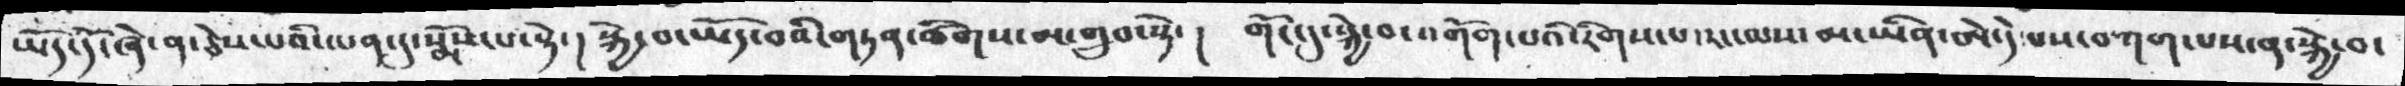ཡོད་དོ་ཞེ་ན་ཅེས་པའི་ཡན་དུ་སྨོས་པ་སྟེ་། སྐྱེ་བ་ཡོད་བའི་གཏན་ཚིགས་མ་གྲུབ་སྟེ་།  གོང་དུ་སྐྱེ་བ་འགོག་པའི་རིགས་པ་རང་མས་མ་ཡིན་ཨེད་དེ་པས་བཀག་པས་ན་སྐྱེ་བ་
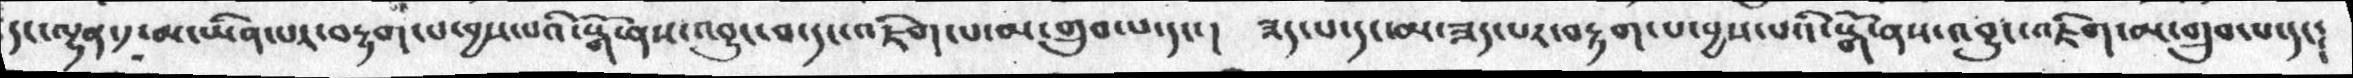དང་ལྷན་༡་མ་ཡིན་པར་བརྟག་པ་བྱས་པའི་སྒོ་ནས་འབྱུང་བ་དང་འཇིག་པ་མ་གྲུབ་པ་དང་། ཟད་པ་དང་མ་ཟད་པར་བརྟག་པ་བྱས་པའི་སྒོ་ནས་འབྱུང་འཇིག་མ་གྲུབ་པ་དང༴
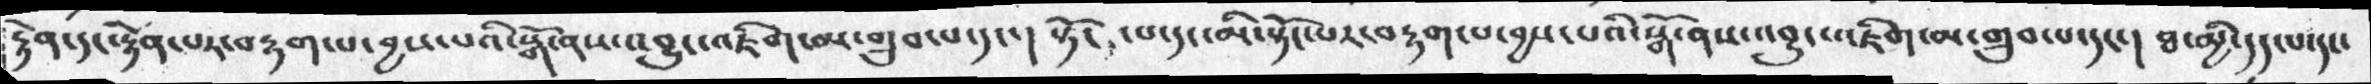རྟེན་དང་རྟེན་པར་བརྟག་པ་བྱས་པའི་སྒོ་ནས་འབྱུང་འཇིག་མ་གྲུབ་པ་དང་། སྟོང་པ་དང་མི་སྟོང་པར་བརྟག་པ་བྱས་པའི་སྒོ་ནས་འབྱུང་འཇིག་མ་གྲུབ་པ་དང་། ཐ་མྱི་དད་པ་དང་
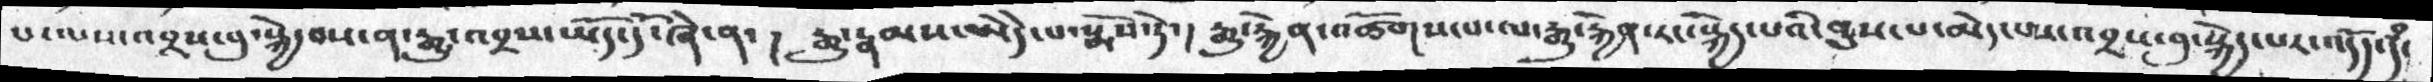པ་ལས་འབྲས་བུ་སྐྱེ་བས་ན་རྒྱུ་འབྲས་ཡོད་དོ་ཞེ་ན་། རྒྱུ་རྣམས་ཨེདེ་པ་སྨོས་ཏེ་། རྒྱུ་རྐྱེན་འཚོགས་པ་ལ་རྒྱུ་རྐྱེན་རང་སྐྱེད་པའི་ནུས་པ་མེད་པས་འབྲས་བུ་སྐྱེད་པར་འདོད་དཾ་
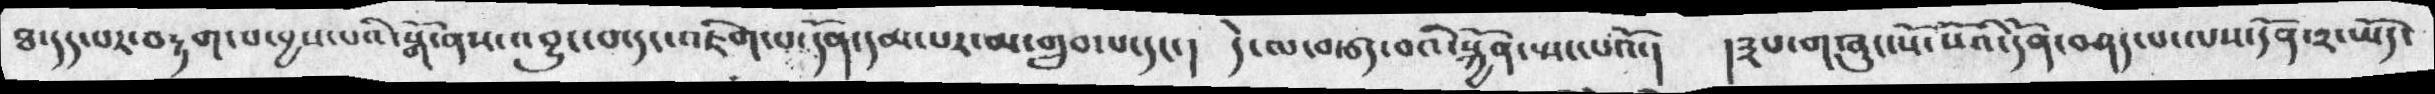ཐ་དད་པར་བརྟག་པ་བྱས་པའི་སྒོ་ནས་འབྱུང་བ་དང་འཇིག་པ་དོན་དམ་པར་མ་གྲུབ་པ་དང་།  དེ་ལ་བརྩད་བའི་སྐྱོན་སྤང་པའོ་།  །༣པ་གཞུང་སོ་སོའི་དོན་བཤད་པ་ལས་དོན་༢་ཡོད་
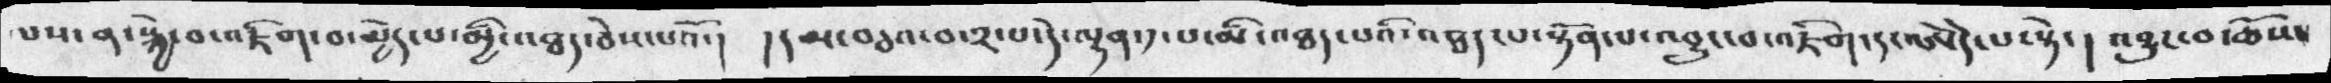པས་ན་སྐྱེ་བ་འཇིག་བ་མྱེད་པ་མྱི་འཐད་ཅེས་པའོ་།  །དམ་བཅའ་བ་༢་པ་དེ་ལྷན་༡་པ་མི་འཐད་པ་སྟོན་པ་འབྱུང་བ་འཇིག་དང་ཨེདེ་པ་སྟེ་། འབྱུང་བ་ཆོས་
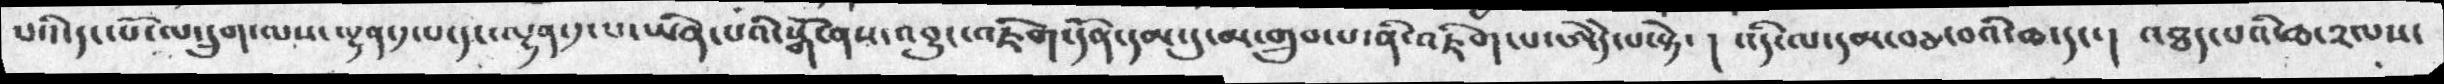པའི་དང་པོ་ལ་དྲུག་ལས་ལྷན་༡་པ་དང་ལྷན་༡་པ་ཡིན་པའི་སྒོ་ནས་འབྱུང་འཇིག་དོན་དམ་དུ་མ་གྲུབ་པ་ནི་འཇིག་པ་ཨེདེ་པ་སྟེ་། འདི་ལ་དམ་བཅ་བའི་ཆ་དང་། འཐད་པའི་ཆ་༢ལས་
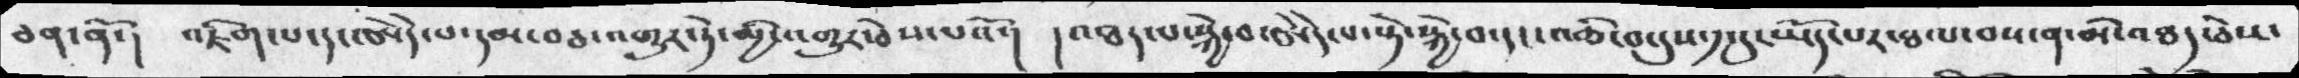ཅན་ནོ་།  འཇིག་པ་དང་ཨེདེ་པ་དམ་བཅ་འགྱུར་ཏེ་མྱི་འགྱུར་ཅེས་པའོ་།  །འཐད་པ་སྐྱེ་བ་ཨེདེ་པ་སྟེ་སྐྱེ་བ་དང་འཆི་བ་དུས་༡་དུ་ཡོད་པར་ཐལ་བས་ན་མི་འཐད་ཅེས་
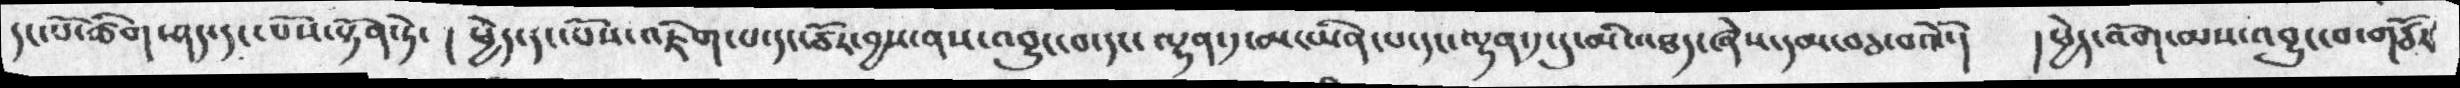དང་ཚིག་ཤད་དང་པོས་སྟོན་ཏེ་། ཕྱེད་དང་པོས་འཇིག་པ་དང་ཙོར་བྱས་ནས་འབྱུང་བ་དང་ལྷན་༡་མ་ཡིན་པ་དང་ལྷན་༡་དུ་མི་འཐད་ཞེས་དམ་བའོ་།  །ཕྱེད་འོག་མས་འབྱུང་བ་གཙོར
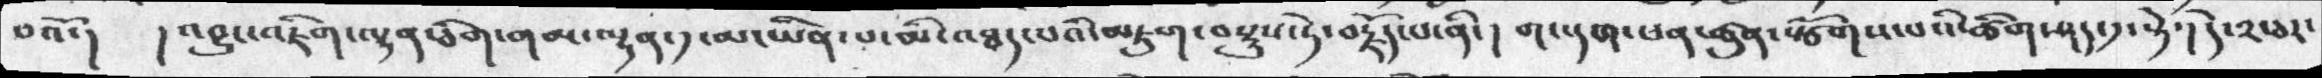བའོ་།  །འབྱུང་འཇིག་ལྷན་ཅིག་གམ་ལྷན་༡་མ་ཡིན་པ་མི་འཐད་པའི་མཇུག་བསྡུས་ཏེ་བརྗོད་པ་ནི་། གང་དག་ཕན་ཚུན་སྩོགས་པའི་ཚིག་ཤད་༡་སྟེ་། དེ་༢ཕར་
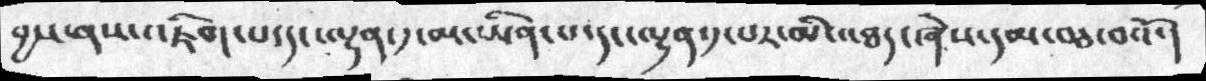བྱས་ནས་འཇིག་པ་དང་ལྷན་༡་མ་ཡིན་པ་དང་ལྷན་༡་པར་མི་འཐད་ཞེས་དམ་བཅ་བའོ་།
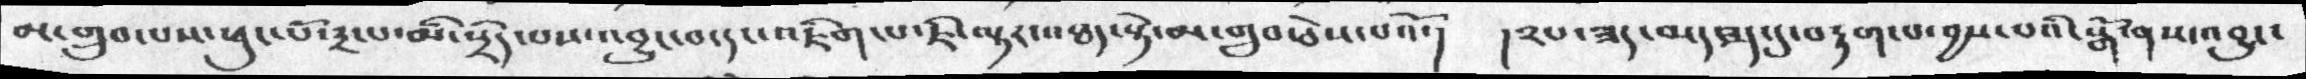མ་གྲུབ་པས་ཕུང་པོ་༣་པ་མི་སྲིད་པས་འབྱུང་བ་དང་འཇིག་པ་ཇི་ལྟར་འཐད་སྟེ་མ་གྲུབ་ཅེས་པའོ་།  །༢པ་ཟད་མ་ཟད་དུ་བརྟག་པ་བྱས་པའི་སྒོ་ནས་འབྱུང་
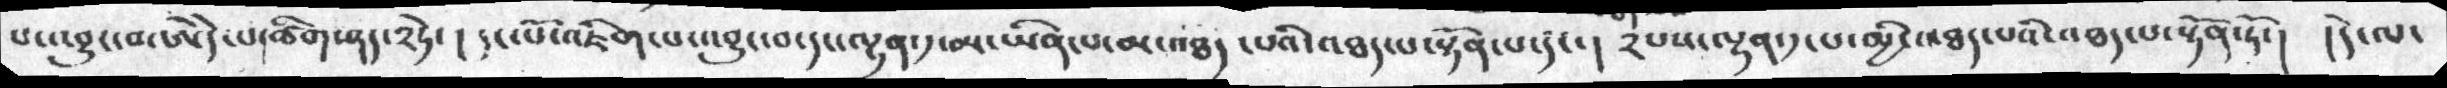པ་འབྱུང་བ་ཨེདེ་པ་ཚཱིག་ཤད་༢ཏེ་། དང་པོ་འཇིག་པ་འབྱུང་བ་དང་ལྷན་༡་མ་ཡིན་པ་མ་འཐད་པའི་འཐད་པ་སྟོན་པ་དང་། ༢པས་ལྷན་༡་པ་མྱི་འཐད་པའི་འཐད་པ་སྟོན་ཏོ་། །དེ་ལ་
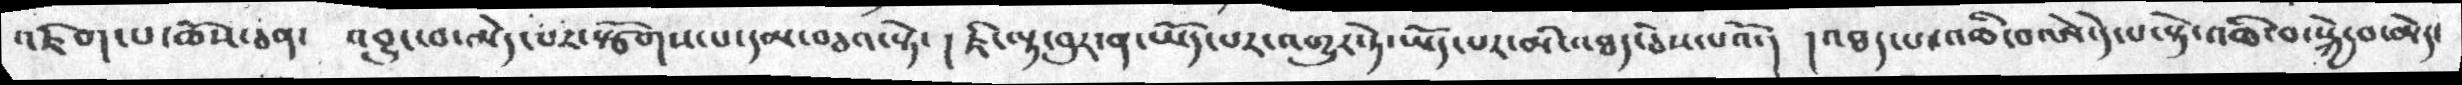འཇིག་པ་ཆོས་ཅན་  འབྱུང་བ་མེད་པར་སྩོགས་པ་དམ་བཅའ་སྟེ་ ། ཇི་ལྟར་བུར་ན་ཡོད་པར་འགྱུར་ཏེ་ཡོད་པར་མི་འཐད་ཅེས་པའོ་། །འཐད་པ་འཆི་བ་ཨེ་དེ་པ་སྟེ་འཆི་བ་སྐྱེ་བ་མེད་
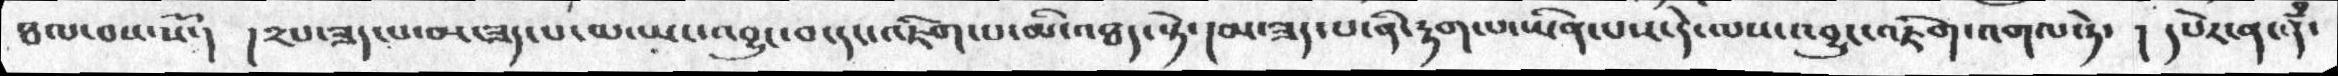ཐལ་བས་སོ་།  །༢པ་ཟད་པ་མ་ཟད་པ་མ་ཡང་འབྱུང་བ་དང་འཇིག་པ་མི་འཐད་སྟེ་ །མ་ཟད་པ་ནི་རྟག་པ་ཡིན་པས་དེ་ལས་འབྱུང་འཇིག་འགལ་ཏེ་ ། དཔེར་ན་ནཾ་
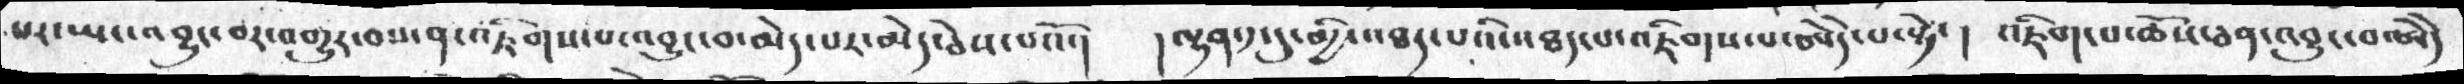པར་ཡང་འབྱུང་བར་འགྱུར་བས་ན་འཇིགས་པ་འབྱུང་བ་མེད་པར་མེད་ཅེས་པའོ་། །ལྷན་༡་དུ་མྱི་འཐད་པའི་འཐད་པ་འཇིགས་པ་ཨེདེ་པ་སྟེ་། འཇིག་པ་ཆོས་ཅན་འབྱུང་བ་ཨེདེ
